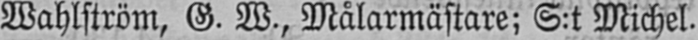Wahlström, G. W., Målarmästare; S:t Michel.
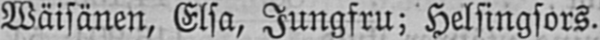Wäisänen, Elsa, Jungfru; Helsingfors.
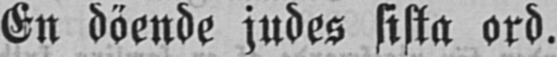En döende judes sista ord.
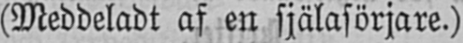(Meddeladt af en själasörjare.)
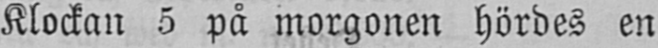Klockan 5 på morgonen hördes en
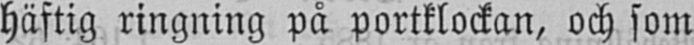häftig ringning på portklockan, och som
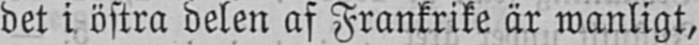det i östra delen af Frankrike är wanligt,
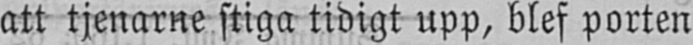att tjenarne stiga tidigt upp, blef porten
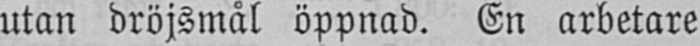utan dröjsmål öppnad. En arbetare
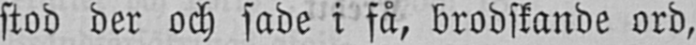stod der och sade i få, brodskande ord,
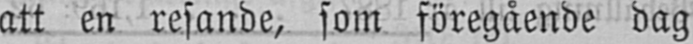att en resande, som föregående dag
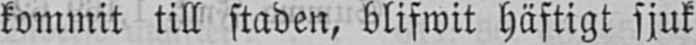kommit till staden, blifwit häftigt sjuk
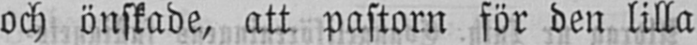och önskade, att pastorn för den lilla
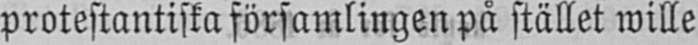protestantiska församlingen på stället wille
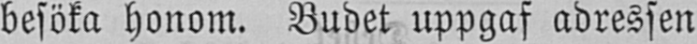besöka honom. Budet uppgaf adressen
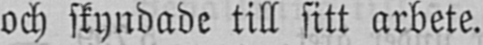och skyndade till sitt arbete.
